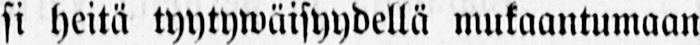si heitä tyytywäisyydellä mukaantumaan
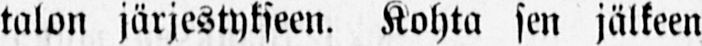talon järjestykseen. Kohta sen jälkeen
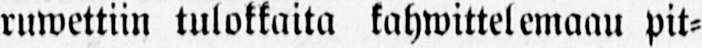ruwettiin tulokkaita kahwittelemaau pit-
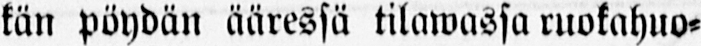kän pöydän ääressä tilawassa ruokahuo-
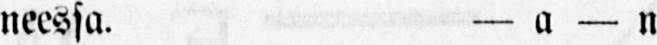neessa. — a — n
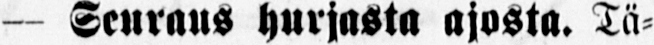— Seuraus hurjasta ajosta. Tä-
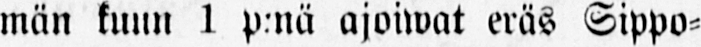män kuun 1 p:nä ajoiwat eräs Sippo-
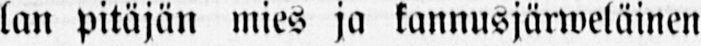lan pitäjän mies ja kannusjärweläinen
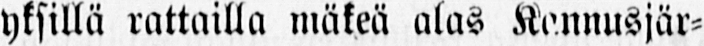yksillä rattailla mäkeä alas Kannusjär-
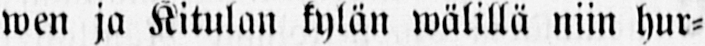wen ja Kitulan kylän wälillä niin hur-
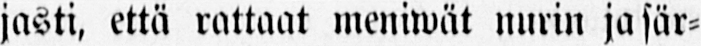jasti, että rattaat meniwät nurin ja sär-
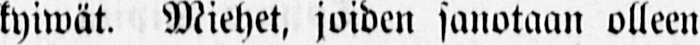kyiwät. Miehet, joiden sanotaan olleen
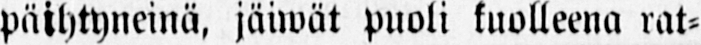päihtyneinä, jäiwät puoli kuolleena rat-
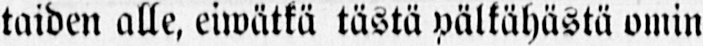taiden alle, eiwätkä tästä pälkähästä omin
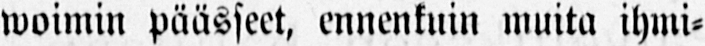woimin päässeet, ennenkuin muita ihmi-
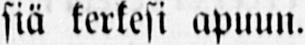siä kerkesi apuun.
